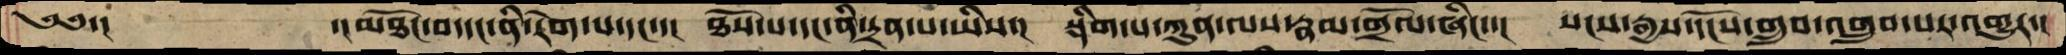༄༅་།          ་།མཐོང་བ་དང་ནི་རེག་པ་དང་་།  ཐོས་པ་དང་ནི་དྲན་པ་ཡིས་།  སྡིག་པ་ཀུན་ལས་རྣམ་གྲོལ་ཞིང་་།  སངས་རྒྱས་དངོས་གྲུབ་འགྲུབ་པར་འགྱུར་།
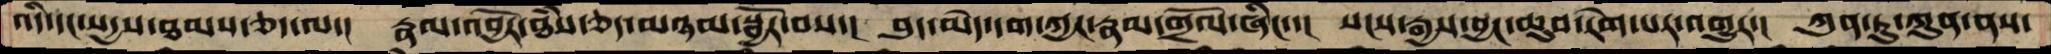འདི་དང་སདྱས་ཐམས་ཅད་ལ་།  རྣལ་འབྱོར་ཐཾས་ཅད་་མཉམ་སྦྱོར་བས་།  བུད་མེད་དག་ཀྱང་རྣམ་གྲོལ་ཞིང་་།  སངས་རྒྱས་བྱང་ཆུབ་རེག་པར་འགྱུར་།  ཀུན་ཏུ་ཀུན་ནས་
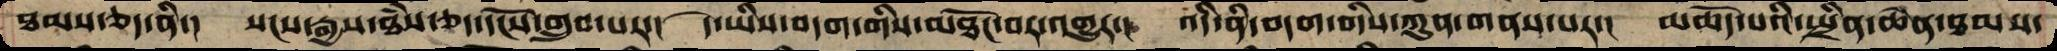ཐམས་ཅད་ནི་།  སངས་རྒྱས་ཐཾས་ཅད་དངོས་གྲུབ་པར་།  དེ་ཡིས་བདག་གིས་མཐོང་བར་འགྱུར་།  འདི་ནི་བདག་གིས་ཀུན་གནས་པར་།  མཆོད་པའི་སྤྲིན་ཆེན་ཐམས་
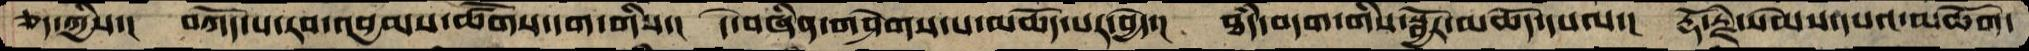ཅད་ཀྱིས་།  བཀོད་པ་རབ་འབྱམས་ཚོགས་དག་གིས་།  དེ་བཞིན་གཤེགས་པ་མཆོད་པར་བྱེད་།  ཐདཾ་བདག་གིས་སྦྱོར་མཆོད་དཔལ་།  རྡོ་རྗེ་སེམས་དཔའ་མཆོག་
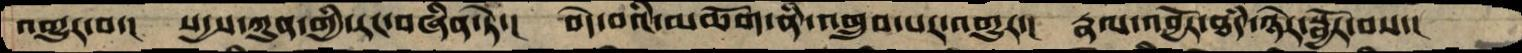འགྱུར་བ་།  སདྱས་ཀུན་གྱི་རང་བཞིན་ཏེ་།  བདེ་བའི་མཆོག་ནི་འགྲུབ་པར་འགྱུར་།  རྣལ་འབྱོར་ཐདཾ་ཉེར་སྦྱོར་བས་།
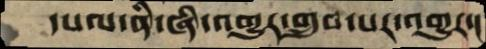དཔལ་ནི་ཞི་འགྱུར་གྲུབ་པར་འགྱུར་།
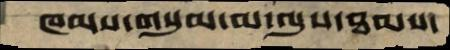ཁམས་གསུམ་མ་ལུས་ཐམས་
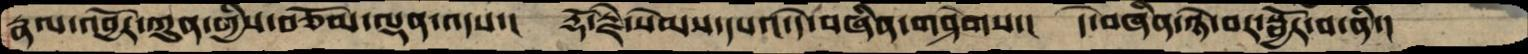རྣལ་འབྱོར་ཀུན་གྱིས་བཅོམ་ལྡན་འདས་།  རྡོ་རྗེ་སེམས་དཔའ་དེ་བཞིན་གཤེགས་།  དེ་བཞིན་ཉེ་བར་སྦྱོར་བ་ནི་།
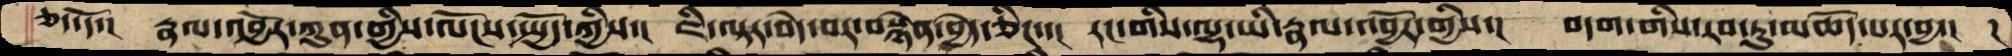ཅད་དོ་།  རྣལ་འབྱོར་ཀུན་གྱིས་ལོངས་སྤྱོད་ཀྱིས་།  ཇི་ལྟར་བདེ་བར་བསྙེན་བྱེད་ཅིང་་།  རང་གིས་ལྷ་ཡི་རྣལ་འབྱོར་གྱིས་།  བདག་གིས་རབ་ཏུ་མཆོད་པར་བྱ་།  །
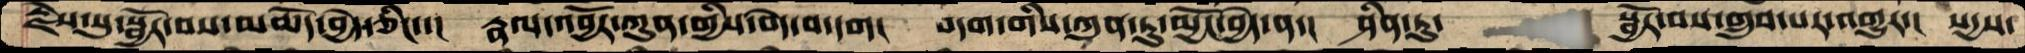རྗེས་སུ་སྦྱོར་བས་མཆོད་བྱེད་ཅིང་་།  རྣལ་འབྱོར་ཀུན་གྱིས་བདེ་བ་དག།  བདག་གིས་ཀུན་ཏུ་མྱོང་བྱེད་ན་།  ཤིན་ཏུ་       སྦྱོར་བས་གྲུབ་པར་འགྱུར་།  སདྱས་
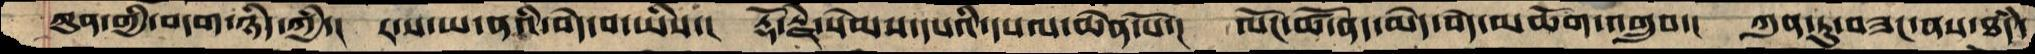ཀུན་གྱི་བདག་ཉིད་ཀྱི་།  ར་ས་ཡ་ནའི་བདེ་བ་ཡིས་།  རྡོ་རྗེ་སེམས་དཔའི་དཔལ་ཆེན་པོ་།  ལོང་ཚོ་ནད་མེད་བདེ་མཆོག་འགྲུབ་།  ཀུན་ཏུ་བཟང་ནས་ཐཾད་
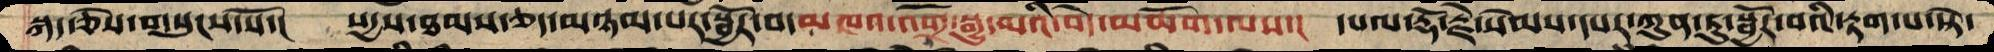སྐད་ཅེས་གསུངས་སོ་།  སདྱས་ཐམས་ཅད་མཉམ་པར་སྦྱོར་བ་མཁའ་འགྲོ་སྒྱུ་མའི་བདེ་མཆོག་ལས་།  དཔལ་རྡོ་རྗ་ེསེམས་དཔར་ཀུན་ཏུ་སྦྱོར་བའི་རྟག་པ་སྟེ་
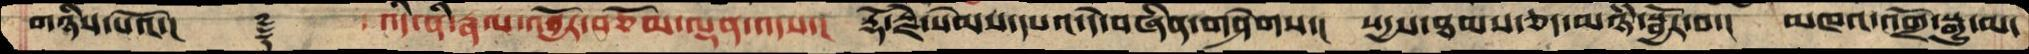གཉིས་པའོ་།    ࿑     འདི་ནི་རྣལ་འབྱོར་བཅོམ་ལྡན་འདས་།  རྡོ་རྗེ་སེམས་དཔའ་དེ་བཞིན་གཤེགས་།  སདྱས་ཐམས་ཅད་མཉཾ་སྦྱོར་བ་།  མཁའ་འགྲོ་སྒྱུ་མ་
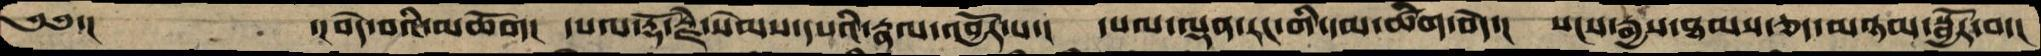༄༅་།        ་།བདེ་བའི་མཆོག།  དཔལ་རྡོ་རྗེ་སེམས་དཔའི་རྣལ་འབྱོར་པ་།  དཔལ་ལྡན་རང་གི་དམ་ཚིག་བདེ་།  སངས་རྒྱས་ཐམས་ཅད་མཉམ་སྦྱོར་བ་།
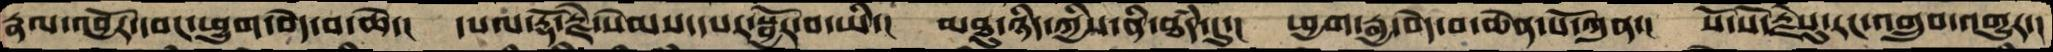རྣལ་འབྱོར་དབང་ཕྱུག་བདེ་བ་ཆེ་།  དཔལ་རྡོ་རྗེ་སེམས་དཔར་སྦྱོར་བ་ཡི་།  མཐུ་ཉིད་ཀྱིས་ནི་ཐདཾ་དུ་།  ཕྱག་རྒྱ་བདེ་བ་ཆེན་པོ་ཀུན་།  སོ་སོ་རྗེསུ་རང་འགྲུབ་འགྱུར་།
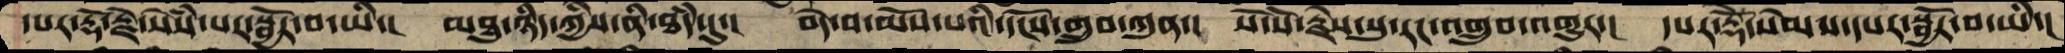དཔར་རྡོ་རྗེ་སེཾས་པར་སྦྱོར་བ་ཡི་།  མཐུ་ཉིད་ཀྱིས་ནི་ཐདཾ་དུ་།  བདེ་བ་མོས་པའི་དངོས་གྲུབ་ཀུན་།  སོ་སོ་རྗེས་སུ་རང་འགྲུབ་འགྱུར་།  དཔར་རྡོེ་སེམས་དཔར་སྦྱོར་བ་ཡི་།
